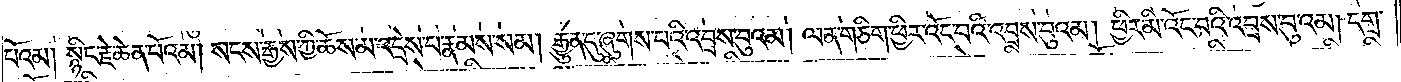པོ་འམ། སྙིང་རྗེ་ཆེན་པོ་འམ། སངས་རྒྱས་ཀྱི་ཆོས་མ་འདྲེས་པ་རྣམས་སམ། རྒྱུན་དུ་ཞུགས་པའི་འབྲས་བུའམ། ལན་གཅིག་ཕྱིར་འོང་བའི་འབྲས་བུའམ། ཕྱིར་མི་འོང་བའི་འབྲས་བུ་འམ། དགྲ་
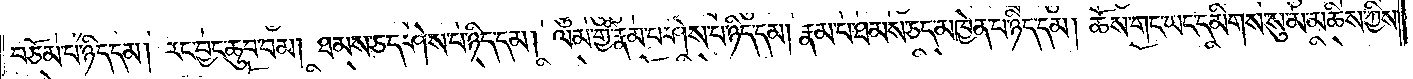བཅོམ་པ་ཉིད་དམ། རང་བྱང་ཆུབ་བམ། ཐམས་ཅད་ཤེས་པ་ཉིད་དམ། ལམ་གྱི་རྣམ་པ་ཤེས་པ་ཉིད་དམ། རྣམ་པ་ཐམས་ཅད་མཁྱེན་པ་ཉིད་དམ། ཆོས་གང་ཡང་དམིགས་སུ་མ་མཆིས་ཀྱིས་
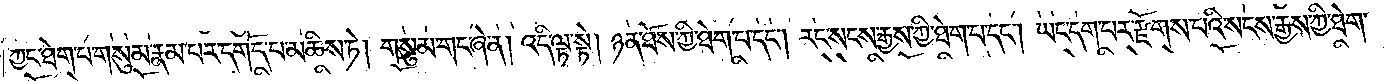ཀྱང་ཐེག་པ་གསུམ་རྣམ་པར་དགོད་པ་མཆིས་ཏེ། གསུམ་གང་ཞེ་ན། འདི་ལྟ་སྟེ། ཉན་ཐོས་ཀྱི་ཐེག་པ་དང༌། རང་སངས་རྒྱས་ཀྱི་ཐེག་པ་དང༌། ཡང་དག་པར་རྫོགས་པའི་སངས་རྒྱས་ཀྱི་ཐེག་
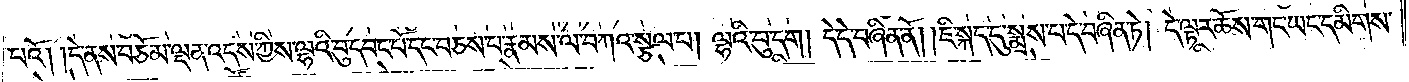པའོ། །དེ་ནས་བཅོམ་ལྡན་འདས་ཀྱིས་ལྷའི་བུ་དབང་པོ་དང་བཅས་པ་རྣམས་ལ་བཀའ་སྩལ་པ། ལྷའི་བུ་དག། དེ་དེ་བཞིན་ནོ། །ཇི་སྐད་དུ་སྨྲས་པ་དེ་བཞིན་ཏེ། དེ་ལྟར་ཆོས་གང་ཡང་དམིགས་
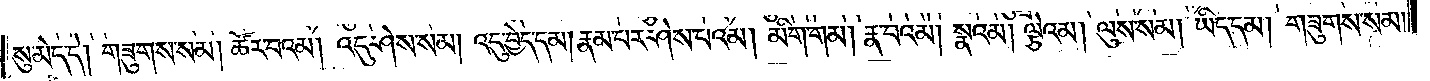སུ་མེད་དེ། གཟུགས་སམ། ཚོར་བའམ། འདུ་ཤེས་སམ། འདུ་བྱེད་དམ། རྣམ་པར་ཤེས་པའམ། མིག་གམ། རྣ་བའམ། སྣའམ། ལྕེ་འམ། ལུས་སམ། ཡིད་དམ། གཟུགས་སམ།
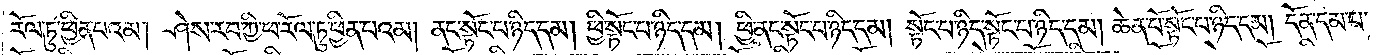རོལ་ཏུ་ཕྱིན་པའམ། ཤེས་རབ་ཀྱི་ཕ་རོལ་ཏུ་ཕྱིན་པའམ། ནང་སྟོང་པ་ཉིད་དམ། ཕྱི་སྟོང་པ་ཉིད་དམ། ཕྱི་ནང་སྟོང་པ་ཉིད་དམ། སྟོང་པ་ཉིད་སྟོང་པ་ཉིད་དམ། ཆེན་པོ་སྟོང་པ་ཉིད་དམ། དོན་དམ་པ་
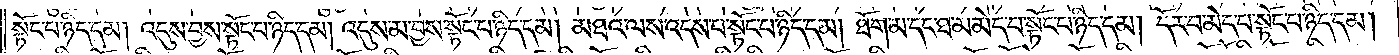སྟོང་པ་ཉིད་དམ། འདུས་བྱས་སྟོང་པ་ཉིད་དམ། འདུས་མ་བྱས་སྟོང་པ་ཉིད་དམ། མཐའ་ལས་འདས་པ་སྟོང་པ་ཉིད་དམ། ཐོག་མ་དང་ཐ་མ་མེད་པ་སྟོང་པ་ཉིད་དམ། དོར་བ་མེད་པ་སྟོང་པ་ཉིད་དམ།
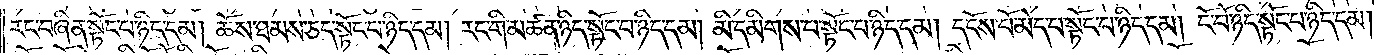རང་བཞིན་སྟོང་པ་ཉིད་དམ། ཆོས་ཐམས་ཅད་སྟོང་པ་ཉིད་དམ། རང་གི་མཚན་ཉིད་སྟོང་པ་ཉིད་དམ། མི་དམིགས་པ་སྟོང་པ་ཉིད་དམ། དངོས་པོ་མེད་པ་སྟོང་པ་ཉིད་དམ། ངོ་བོ་ཉིད་སྟོང་པ་ཉིད་དམ།
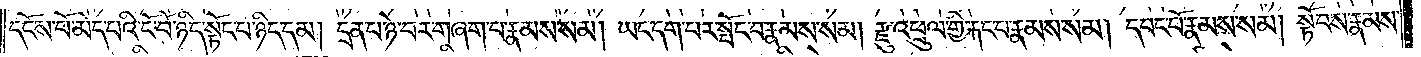དངོས་པོ་མེད་པའི་ངོ་བོ་ཉིད་སྟོང་པ་ཉིད་དམ། དྲན་པ་ཉེ་བར་གཞག་པ་རྣམས་སམ། ཡང་དག་པར་སྤོང་བ་རྣམས་སམ། རྫུ་འཕྲུལ་གྱི་རྐང་པ་རྣམས་སམ། དབང་པོ་རྣམས་སམ། སྟོབས་རྣམས་
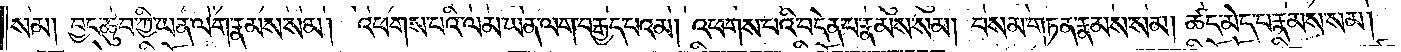སམ། བྱང་ཆུབ་ཀྱི་ཡན་ལག་རྣམས་སམ། འཕགས་པའི་ལམ་ཡན་ལག་བརྒྱད་པའམ། འཕགས་པའི་བདེན་པ་རྣམས་སམ། བསམ་གཏན་རྣམས་སམ། ཚད་མེད་པ་རྣམས་སམ།
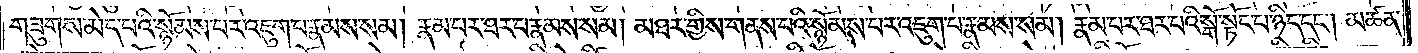གཟུགས་མེད་པའི་སྙོམས་པར་འཇུག་པ་རྣམས་སམ། རྣམ་པར་ཐར་པ་རྣམས་སམ། མཐར་གྱིས་གནས་པའི་སྙོམས་པར་འཇུག་པ་རྣམས་སམ། རྣམ་པར་ཐར་པའི་སྒོ་སྟོང་པ་ཉིད་དང༌། མཚན་
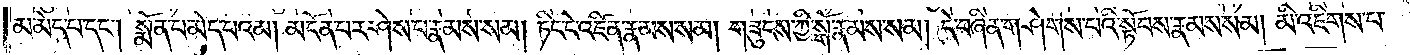མ་མེད་པ་དང༌། སྨོན་པ་མེད་པའམ། མངོན་པར་ཤེས་པ་རྣམས་སམ། ཏིང་ངེ་འཛིན་རྣམས་སམ། གཟུངས་ཀྱི་སྒོ་རྣམས་སམ། དེ་བཞིན་གཤེགས་པའི་སྟོབས་རྣམས་སམ། མི་འཇིགས་པ་
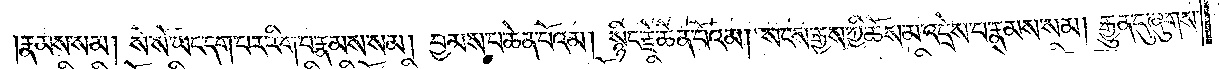རྣམས་སམ། སོ་སོ་ཡང་དག་པར་རིག་པ་རྣམས་སམ། བྱམས་པ་ཆེན་པོ་འམ། སྙིང་རྗེ་ཆེན་པོ་འམ། སངས་རྒྱས་ཀྱི་ཆོས་མ་འདྲེས་པ་རྣམས་སམ། རྒྱུན་དུ་ཞུགས་
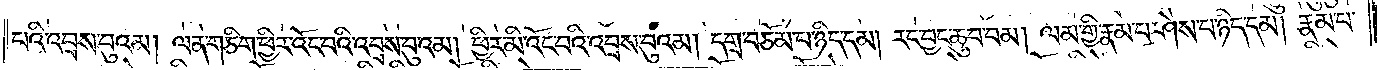པའི་འབྲས་བུའམ། ལན་གཅིག་ཕྱིར་འོང་བའི་འབྲས་བུ་འམ། ཕྱིར་མི་འོང་བའི་འབྲས་བུའམ། དགྲ་བཅོམ་པ་ཉིད་དམ། རང་བྱང་ཆུབ་བམ། ལམ་གྱི་རྣམ་པ་ཤེས་པ་ཉིད་དམ། རྣམ་པ་
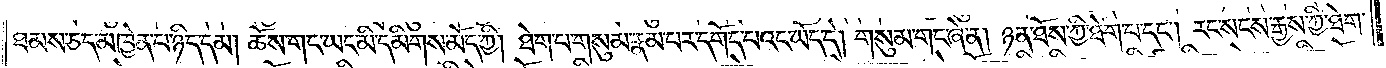ཐམས་ཅད་མཁྱེན་པ་ཉིད་དམ། ཆོས་གང་ཡང་མི་དམིགས་མོད་ཀྱི། ཐེག་པ་གསུམ་རྣམ་པར་དགོད་པའང་ཡོད་དེ། གསུམ་གང་ཞེ་ན། ཉན་ཐོས་ཀྱི་ཐེག་པ་དང༌། རང་སངས་རྒྱས་ཀྱི་ཐེག་
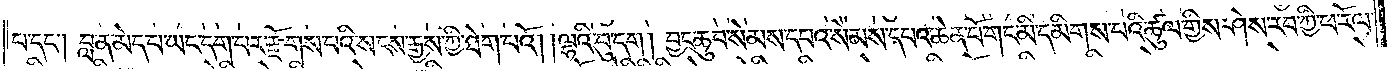པ་དང༌། བླ་ན་མེད་པ་ཡང་དག་བར་རྫོགས་པའི་སངས་རྒྱས་ཀྱི་ཐེག་པའོ། །ལྷའི་བུ་དག །བྱང་ཆུབ་སེམས་དཔའ་སེམས་དཔའ་ཆེན་པོ་གང་མི་དམིགས་པའི་ཚུལ་གྱིས་ཤེས་རབ་ཀྱི་ཕ་རོལ་
